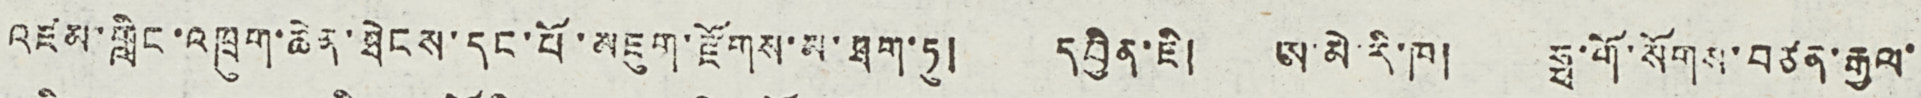འཛམ་གླིང་འཁྲུག་ཆེན་ཐེངས་དང་པོ་མཇུག་རྫོགས་མ་ཐག་ཏུ། དབྱིན་ཇི། ཨ་མེ་རི་ཁ། ཧྥ་གོ་སོགས་བཙན་རྒྱལ་
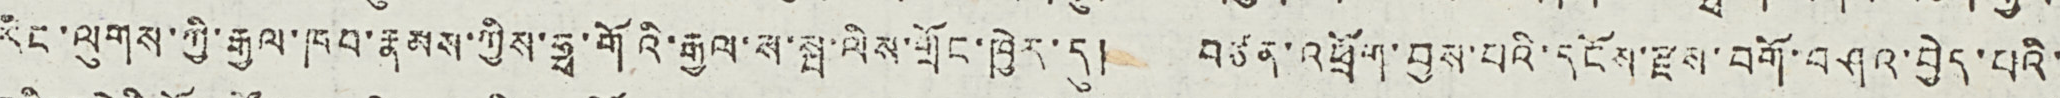རིང་ལུགས་ཀྱི་རྒྱལ་ཁབ་རྣམས་ཀྱིས་ཧྥ་གོའི་རྒྱལ་ས་སྤ་ལིས་གྲོང་ཁྱེར་དུ། བཙན་འཕྲོག་བྱས་པའི་དངོས་རྫས་བགོ་བཤའ་བྱེད་པའི་
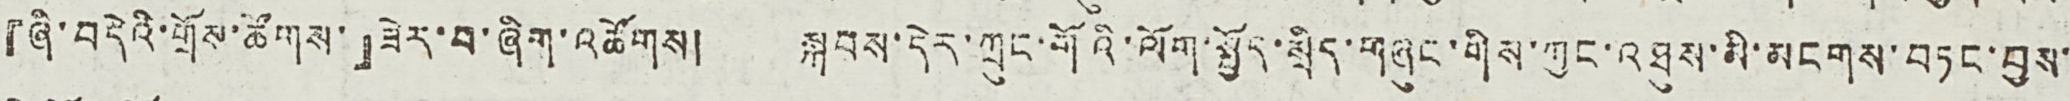『ཞི་བདེའི་གྲོས་ཚོགས་』ཟེར་བ་ཞིག་འཚོགས། སྐབས་དེར་ཀྲུང་གོའི་ལོག་སྤྱོད་སྲིད་གཞུང་གིས་ཀྱང་འཐུས་མི་དམངས་བཏང་བྱས་
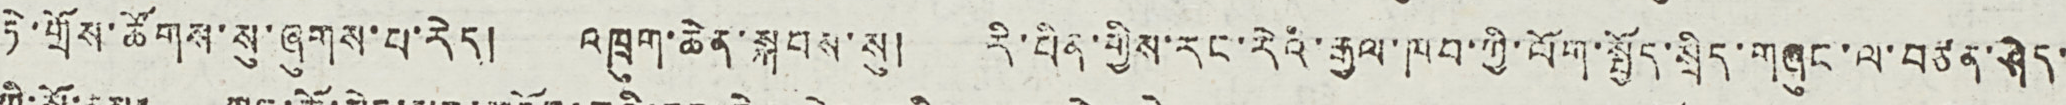ཏེ་གྲོས་ཚོགས་སུ་ཞུགས་པ་རེད། འཁྲུག་ཆེན་སྐབས་སུ། རི་པིན་གྱིས་རང་རེའི་རྒྱལ་ཁབ་ཀྱི་ལོག་སྤྱོད་སྲིད་གཞུང་ལ་བཙན་ཤེད་
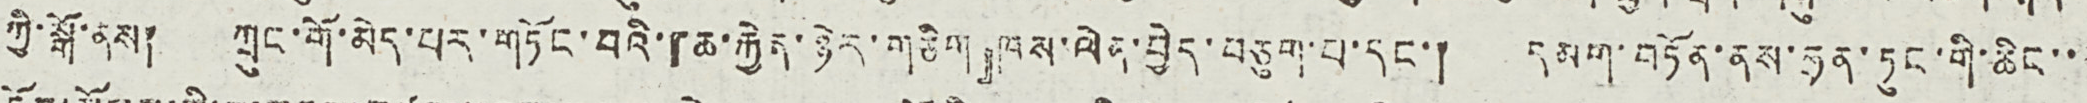ཀྱི་སྒོ་ནས། ཀྲུང་གོ་མེད་པར་གཏོང་བའི་『ཆ་རྐྱེན་ཉེར་གཅིག』ཁས་ལེན་བྱེད་བཅུག་པ་དང་། དམག་བཏོན་ནས་ཧྲན་ཏུང་གི་ཆིང་་
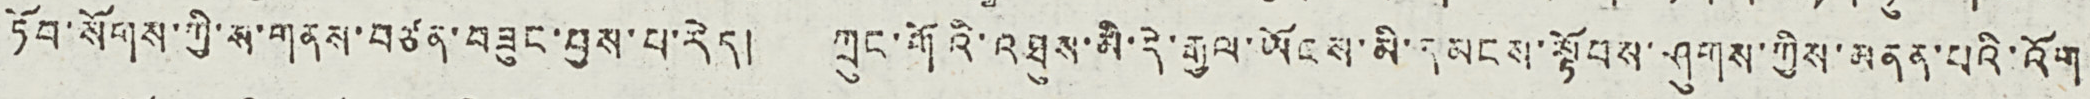ཏོབ་སོགས་ཀྱི་ས་གནས་བཙན་བཟུང་བྱས་པ་རེད། ཀྲུང་གོའི་འཐུས་མི་དེ་རྒྱལ་ཡོངས་མི་དམངས་སྟོབས་ཤུགས་ཀྱིས་མནན་པའི་འོག
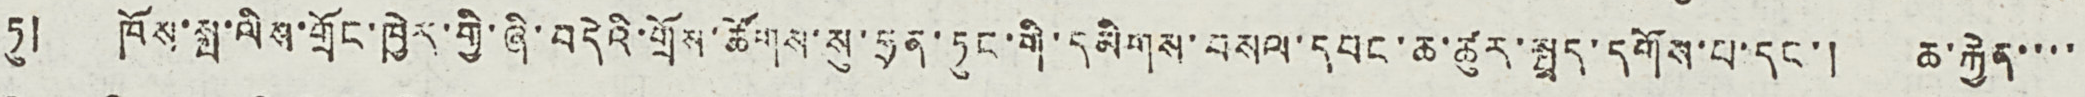ཏུ། ཁོས་སྤ་ལིས་གྲོང་ཁྱེར་གྱི་ཞི་བདེའི་གྲོས་ཚོགས་སུ་ཧྲན་ཏུང་གི་དམིགས་བསལ་དབང་ཆ་ཚུར་སྤྲད་དགོས་པ་དང་། ཆ་རྐྱེན་་་་
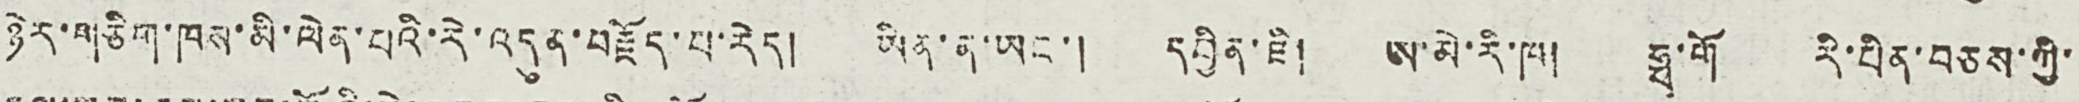ཉེར་གཅིག་ཁས་མི་ལེན་པའི་རེ་འདུན་བརྗོད་པ་རེད། ཡིན་ན་ཡང་། དབྱིན་ཇི། ཨ་མེ་རི་ཁ། ཧྥ་གོ རི་པིན་བཅས་ཀྱི་
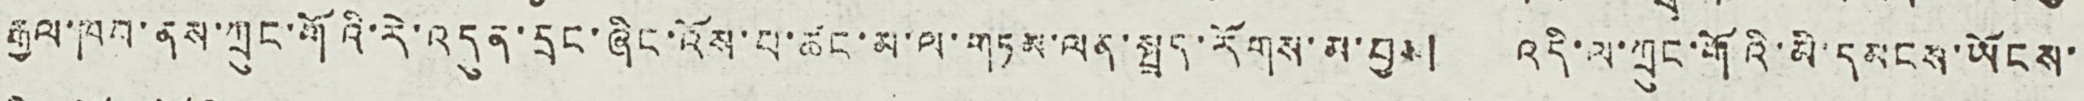རྒྱལ་ཁབ་ནས་ཀྲུང་གོའི་རེ་འདུན་དྲང་ཞིང་འོས་པ་ཚང་མ་ལ་གཏམ་ལན་སྤྲད་རོགས་མ་བྱས། འདི་ལ་ཀྲུང་གོའི་མི་མདངས་ཡོངས་
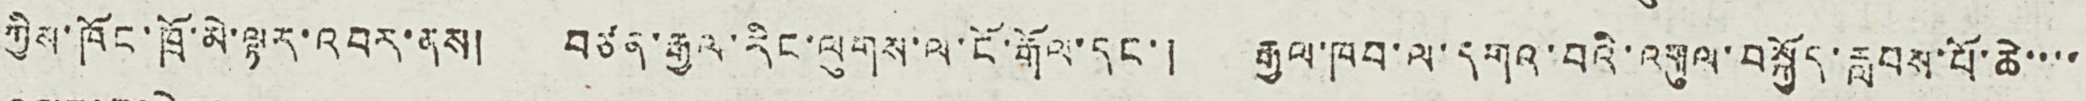ཀྱིས་ཁོང་ཁྲོ་མེ་ལྟར་འབར་ནས། བཙན་རྒྱལ་རིང་ལུགས་ལ་ངོ་རྒོལ་དང་། རྒྱལ་ཁབ་ལ་དགའ་བའི་འགུལ་བསྐྱོད་རླབས་པོ་ཆེ་་་་
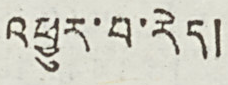འཕྱུར་བ་རེད།
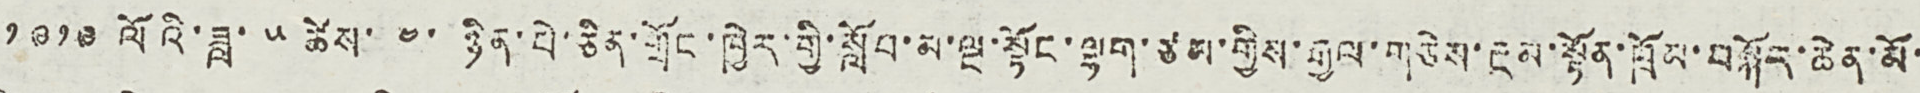༡༩༡༩ ལོའི་ཟླ་ ༥ ཚེས་ ༤་ ཉིན་པེ་ཅིན་གྲོང་ཁྱེར་གྱི་སློབ་མ་ལྔ་སྟོང་ལྷག་ཙམ་གྱིས་རྒྱལ་གཅེས་རྔམ་སྟོན་ཁྲོམ་བསྐོར་ཆེན་མོ་
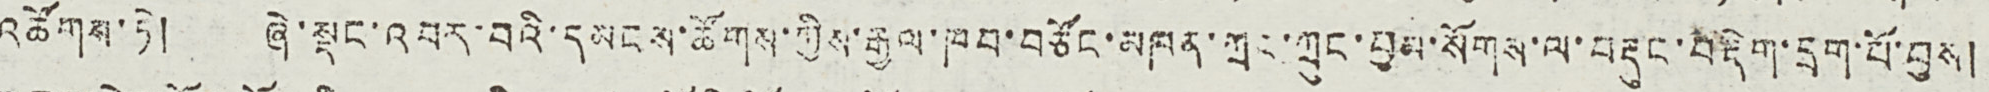འཚོགས་ཏེ། ཞེ་སྡང་འབར་བའི་དམངས་ཚོགས་ཀྱིས་རྒྱལ་ཁབ་བཙོང་མཁན་ཀྲང་ཀྲུང་བྱམ་སོགས་ལ་བརྡུང་བརྡེག་དྲག་པོ་བྱས།
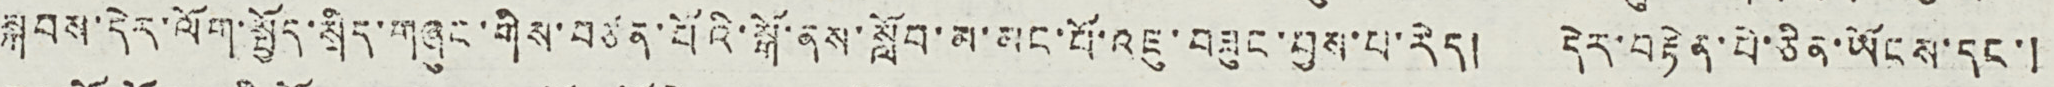སྐབས་དེར་ལོག་སྤྱོད་སྲིད་གཞུང་གིས་བཙན་པོའི་སྒོ་ནས་སློབ་མ་མང་པོ་འཇུ་བཟུང་བྱས་པ་རེད། དེར་བརྟེན་པེ་ཅིན་ཡོངས་དང་།
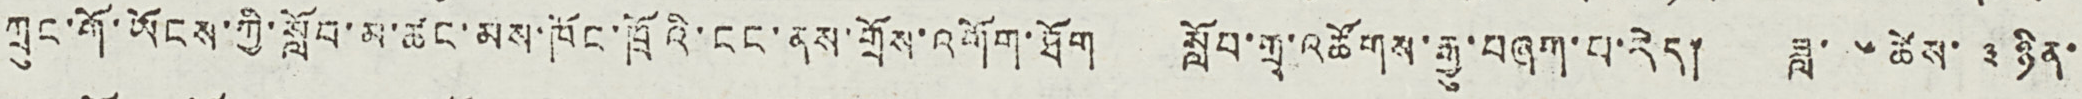ཀྲུང་གོ་ཡོངས་ཀྱི་སློབ་མ་ཚང་མས་ཁོང་ཁྲོའི་ངང་ནས་གྲོས་འགོག་ཐོག སློབ་གྲྭ་འཚོགས་རྒྱུ་བཞག་པ་རེད། ཟླ་ ༦ ཚེས་ ༣ ཉིན་
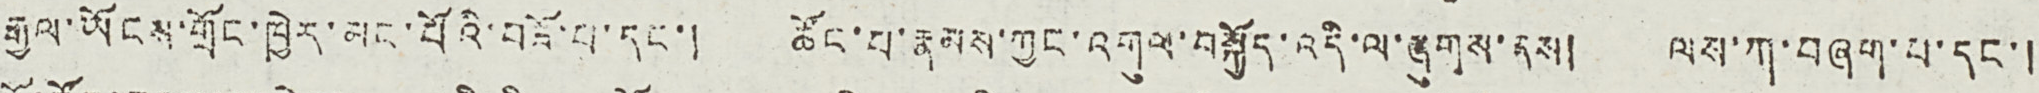རྒྱལ་ཡོངས་གྲོང་ཁྱེར་མང་པོའི་བཟོ་པ་དང་། ཚོང་པ་རྣམས་ཀྱང་འགུལ་བསྐྱོད་འདི་ལ་ཞུགས་ནས། ལས་ཀ་བཞག་པ་དང་།
